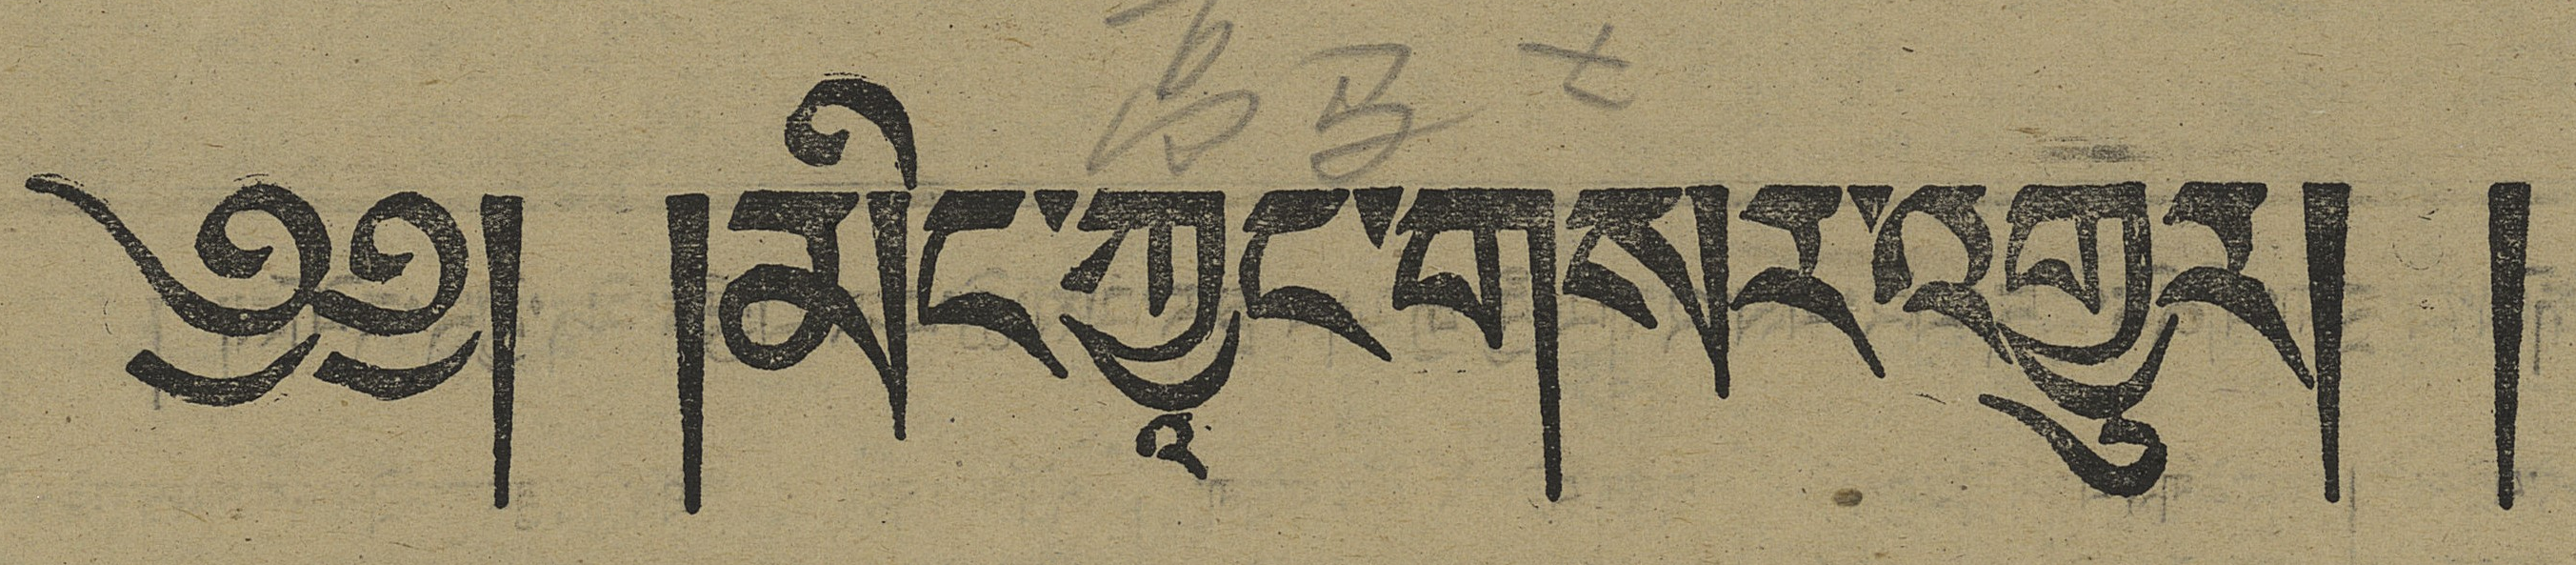༄༅། །མིང་ཀྱཱང་གསར་འགྱུར། །
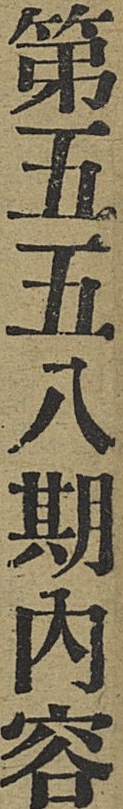第五五八期內容
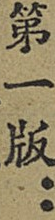第一版：
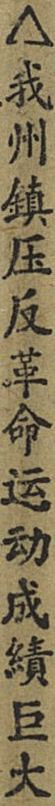△我州鎮压反革命运动成績巨大
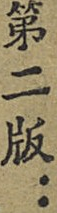第二版：
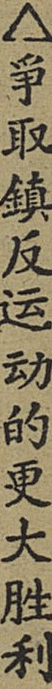△爭取鎮反运动的更大胜利
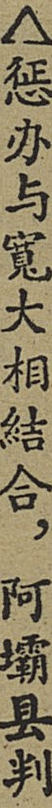△惩办与寬大相結合，阿壩县判
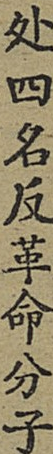处四名反革命分子
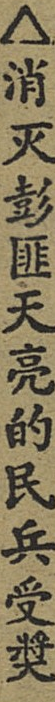△消灭彭匪天亮的民兵受獎
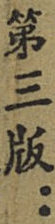第三版：
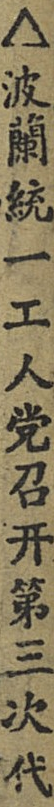△波蘭統一工人党召开第三次代
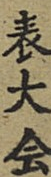表大会
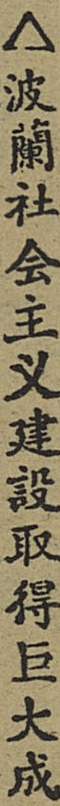△波蘭社会主义建設取得巨大成
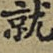就
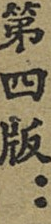第四版：
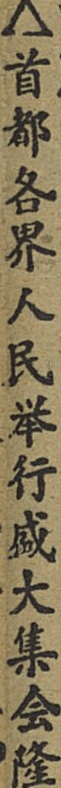△首都各界人民举行盛大集会隆
